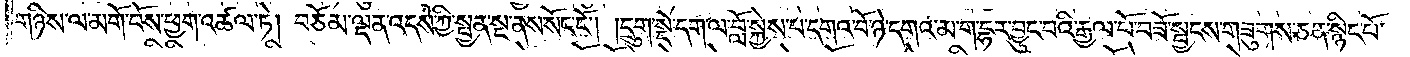གཉིས་ལ་མགོ་བོས་ཕྱག་འཚལ་ཏེ། བཅོམ་ལྡན་འདས་ཀྱི་སྤྱན་སྔ་ནས་སོང་ངོ༌། །དྲུག་སྡེ་དག་ལ་བློ་སྐྱེས་པ་དགའ་བོ་ཉེ་དགའ་མ་ག་དྷར་བྱུང་བའི་རྒྱལ་པོ་བཟོ་སྦྱངས་གཟུགས་ཅན་སྙིང་པོ་
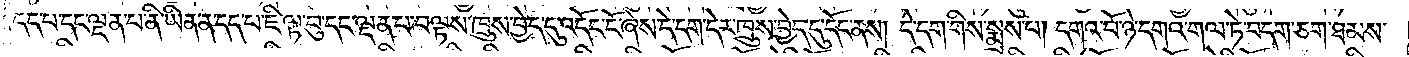དད་པ་དང་ལྡན་པ་ནི་ཡིན་ན་དད་པ་ཇི་ལྟ་བུ་དང་ལྡན་པ་བལྟས་ཁྲུས་བྱེད་དུ་འདོང་ངོ་ཞེས་དེ་དག་དེར་ཁྲུས་བྱེད་དུ་དོང་ནས། དེ་དག་གིས་སྨྲས་པ། དགའ་བོ་ཉེ་དགའ་གལ་ཏེ་བདག་ཅག་ཐམས་
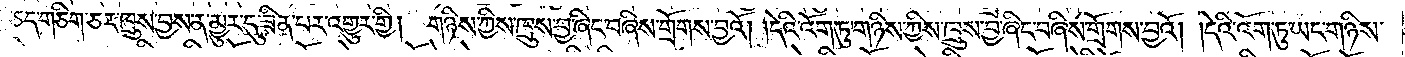ཅད་གཅིག་ཅར་ཁྲུས་བྱས་ན་མྱུར་དུ་ཟིན་པར་འགྱུར་གྱི། གཉིས་ཀྱིས་ཁྲུས་བྱ་ཞིང་བཞིས་གྲོགས་བྱའོ། །དེའི་འོག་ཏུ་གཉིས་ཀྱིས་ཁྲུས་བྱ་ཞིང་བཞིས་གྲོགས་བྱའོ། །དེའི་འོག་ཏུ་ཡང་གཉིས་
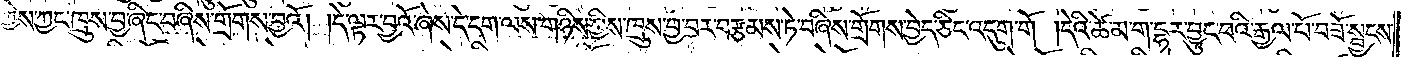ཀྱིས་ཀྱང་ཁྲུས་བྱ་ཞིང་བཞིས་གྲོགས་བྱའོ། །དེ་ལྟར་བྱའོ་ཞེས་དེ་དག་ལས་གཉིས་ཀྱིས་ཁྲུས་བྱ་བར་བརྩམས་ཏེ་བཞིས་གྲོགས་བྱེད་ཅིང་འདུག་གོ །དེའི་ཚེ་མ་ག་དྷར་བྱུང་བའི་རྒྱལ་པོ་བཟོ་སྦྱངས་
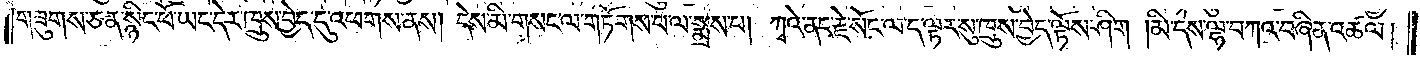གཟུགས་ཅན་སྙིང་པོ་ཡང་དེར་ཁྲུས་བྱེད་དུ་འཕགས་ནས། དེས་མི་གསང་ལ་གཏོགས་པ་ལ་སྨྲས་པ། ཀྭའེ་ནང་རྗེ་སོང་ལ་ད་ལྟར་སུ་ཁྲུས་བྱེད་ལྟོས་ཤིག །མི་དེས་ལྷ་བཀའ་བཞིན་འཚལ།
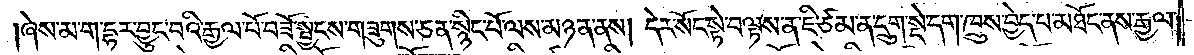ཞེས་མ་ག་དྷར་བྱུང་བའི་རྒྱལ་པོ་བཟོ་སྦྱངས་གཟུགས་ཅན་སྙིང་པོ་ལས་མཉན་ནས། དེར་སོང་སྟེ་བལྟས་ན་ཇི་ཙམ་ན་དྲུག་སྡེ་དག་ཁྲུས་བྱེད་པ་མཐོང་ནས་རྒྱལ་
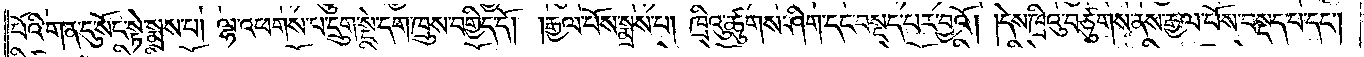པོའི་གན་དུ་སོང་སྟེ་སྨྲས་པ། ལྷ་འཕགས་པ་དྲུག་སྡེ་དག་ཁྲུས་བགྱིད་དོ། །རྒྱལ་པོས་སྨྲས་པ། ཁྲིའུ་ཚུགས་ཤིག་དང་བསྡད་པར་བྱའོ། །དེས་ཁྲིའུ་བཙུགས་ནས་རྒྱལ་པོས་བསྡད་པ་དང༌།
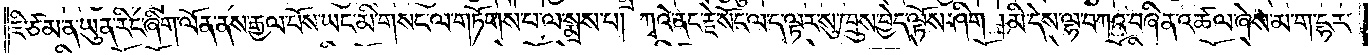ཇི་ཙམ་ན་ཡུན་རིང་ཞིག་ལོན་ནས་རྒྱལ་པོས་ཡང་མི་གསང་ལ་གཏོགས་པ་ལ་སྨྲས་པ། ཀྭའེ་ནང་རྗེ་སོང་ལ་ད་ལྟར་སུ་ཁྲུས་བྱེད་ལྟོས་ཤིག །མི་དེས་ལྷ་བཀའ་བཞིན་འཚལ་ཞེས་མ་ག་དྷར་
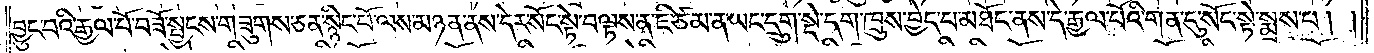བྱུང་བའི་རྒྱལ་པོ་བཟོ་སྦྱངས་གཟུགས་ཅན་སྙིང་པོ་ལས་མཉན་ནས་དེར་སོང་སྟེ་བལྟས་ན་ཇི་ཙམ་ན་ཡང་དྲུག་སྡེ་དག་ཁྲུས་བྱེད་པ་མཐོང་ནས་དེ་རྒྱལ་པོའི་གན་དུ་སོང་སྟེ་སྨྲས་པ། །
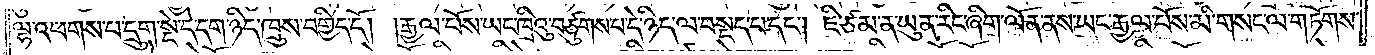ལྷ་འཕགས་པ་དྲུག་སྡེ་དེ་དག་ཉིད་ཁྲུས་བགྱིད་དོ། །རྒྱལ་པོས་ཡང་ཁྲིའུ་བཙུགས་པ་དེ་ཉིད་ལ་བསྡད་པ་དང༌། ཇི་ཙམ་ན་ཡུན་རིང་ཞིག་ལོན་ནས་ཡང་རྒྱལ་པོས་མི་གསང་ལ་གཏོགས་
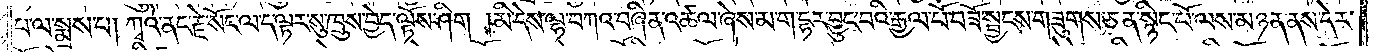པ་ལ་སྨྲས་པ། ཀྭའེ་ནང་རྗེ་སོང་ལ་ད་ལྟར་སུ་ཁྲུས་བྱེད་ལྟོས་ཤིག །མི་དེས་ལྷ་བཀའ་བཞིན་འཚལ་ཞེས་མ་ག་དྷར་བྱུང་བའི་རྒྱལ་པོ་བཟོ་སྦྱངས་གཟུགས་ཅན་སྙིང་པོ་ལས་མཉན་ནས་དེར་
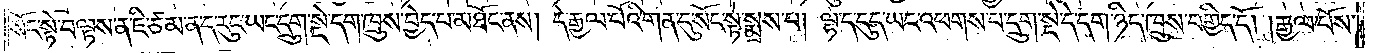སོང་སྟེ་བལྟས་ན་ཇི་ཙམ་ན་ད་རུང་ཡང་དྲུག་སྡེ་དག་ཁྲུས་བྱེད་པ་མཐོང་ནས། དེ་རྒྱལ་པོའི་གན་དུ་སོང་སྟེ་སྨྲས་པ། ལྷ་ད་དུད་ཡང་འཕགས་པ་དྲུག་སྡེ་དེ་དག་ཉིད་ཁྲུས་བགྱིད་དོ། །རྒྱལ་པོས་
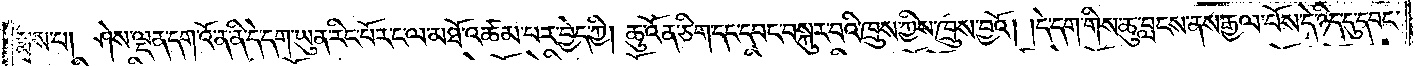སྨྲས་པ། ཤེས་ལྡན་དག་འོ་ན་ནི་དེ་དག་ཡུན་རིང་པོར་ད་ལ་མཐོ་འཚམ་པར་བྱེད་ཀྱི། ཆུ་འོན་ཅིག་དང་དབང་བསྐུར་བའི་ཁྲུས་ཀྱིས་ཁྲུས་བྱའོ། །དེ་དག་གིས་ཆུ་བླངས་ནས་རྒྱལ་པོས་དེ་ཉིད་དུ་དབང་
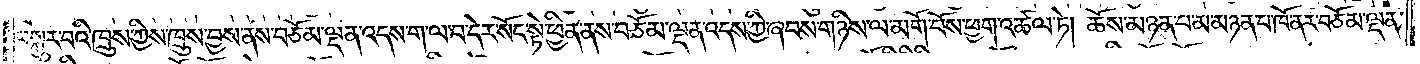བསྐུར་བའི་ཁྲུས་ཀྱིས་ཁྲུས་བྱས་ནས་བཅོམ་ལྡན་འདས་ག་ལ་བ་དེར་སོང་སྟེ་ཕྱིན་ནས་བཅོམ་ལྡན་འདས་ཀྱི་ཞབས་གཉིས་ལ་མགོ་བོས་ཕྱག་འཚལ་ཏེ། ཆོས་མཉན་པ་མ་མཉན་པ་ཁོ་ནར་བཅོམ་ལྡན་
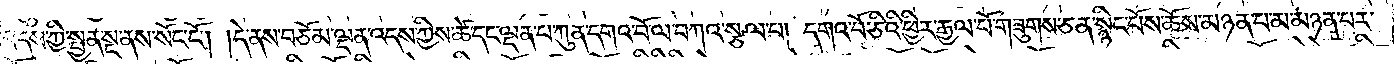འདས་ཀྱི་སྤྱན་སྔ་ནས་སོང་ངོ༌། །དེ་ནས་བཅོམ་ལྡན་འདས་ཀྱིས་ཚེ་དང་ལྡན་པ་ཀུན་དགའ་བོ་ལ་བཀའ་སྩལ་པ། དགའ་བོ་ཅིའི་ཕྱིར་རྒྱལ་པོ་གཟུགས་ཅན་སྙིང་པོས་ཆོས་མཉན་པ་མ་མཉན་པར་
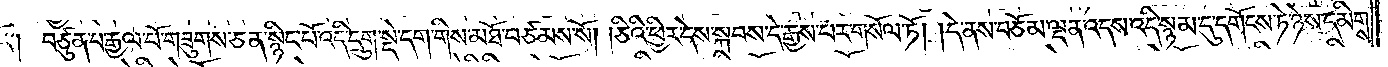སོང༌། བཙུན་པ་རྒྱལ་པོ་གཟུགས་ཅན་སྙིང་པོ་འདི་དྲུག་སྡེ་དག་གིས་མཐོ་བཙམས་སོ། །ཅིའི་ཕྱིར་དེས་སྐབས་དེ་རྒྱས་པར་གསོལ་ཏོ། །དེ་ནས་བཅོམ་ལྡན་འདས་འདི་སྙམ་དུ་དགོངས་ཏེ་ཉེས་དམིགས་
